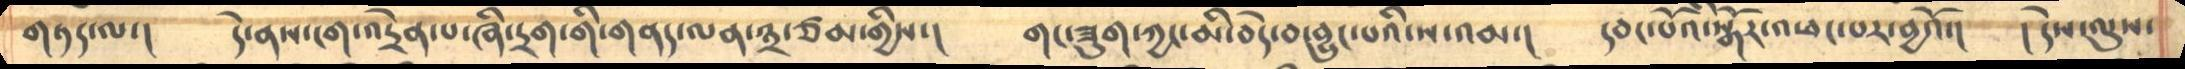གཏད་ལ་།   དེ་ནས་ངག་འདྲེན་པ་ཞི་དྲག་གི་གནད་ལན་༣་ཙམ་གྱིས་།    གང་ཟུག་ཀྱང་མི་བདེ་བ་བྱུང་པའི་ས་འམ་།  དབང་པོའི་སྒོར་འཕང་པར་བྱའོ་།   །དེས་ལུས་
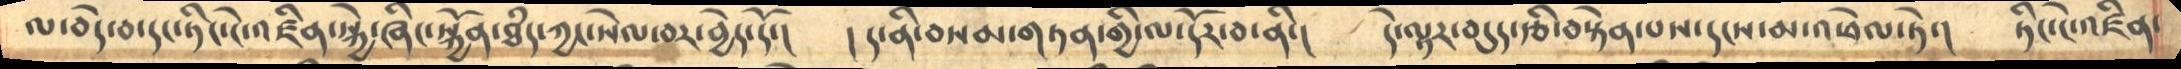ལ་བདེ་བ་དང་ཏིང་ངེ་འཛིན་སྐྱེ་ཞིང་སྐྱོན་ཐྃད་ཀྱང་སེལ་བར་བྱེད་དོ་།   །ད་ནི་བསམ་གཏན་གྱི་ལ་དོར་བ་ནི་།   དེ་ལྟར་བདུད་རྩི་བསྟེན་པས་དངས་མ་འཕེལ་ཏེ་།   ཏིང་ངེ་འཛིན་
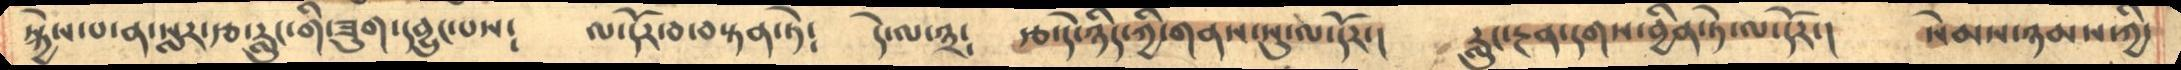སྐྱེས་པ་ན་སླར་རྩ་རླུང་གི་ཟུག་དབྱུང་པས༴   ལ་དོར་བ་བསྟན་ཏེ༴   དེ་ལ་༣༴    རྩ་དེ་ཉིད་ཀྱི་གནས་སུ་ལ་དོར་།   རླུང་རྔན་དགས་བྱིན་ཏེ་ལ་དོར་།  སེམས་ཉམས་ཀྱི་
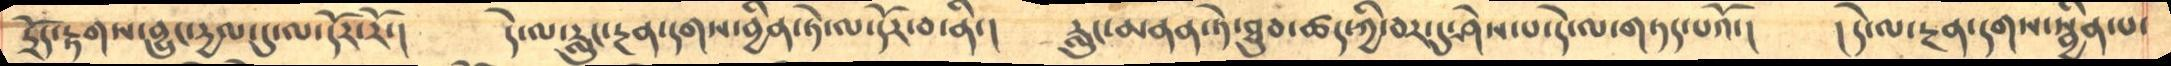དྲོད་རྟགས་བྱུང་དྱལ་དུ་ལ་དོར་རོ་།   དེ་ལ་རླུང་རྔན་དགས་བྱིན་ཏེ་ལ་དོར་བ་ནི་།   རླུང་མནན་ཏེ་ཐུབ་ཚད་ཀྱི་བར་དུ་ཤེས་པ་དེ་ལ་གཏད་པའོ་།   །དེ་ལ་རྔན་དགས་སྦྱིན་པ་
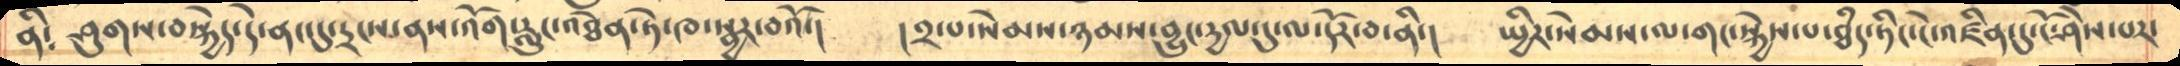ནི༴   ཤུགས་བསྐྱེད་དེ་ནང་དུ་དྲངས་ནས་འོག་རླུང་འཐེན་ཏེ་ཁ་སྦྱར་བའོ་།   །༢་པ་སེམས་ཉམས་བྱུང་དྱལ་དུ་ལ་དོར་བ་ནི་།   སྤྱིར་སེམས་ལ་གང་སྐྱེས་པ་ཐྃད་ཏིང་ངེ་འཛིན་དུ་ངོ་ཤེས་པར་
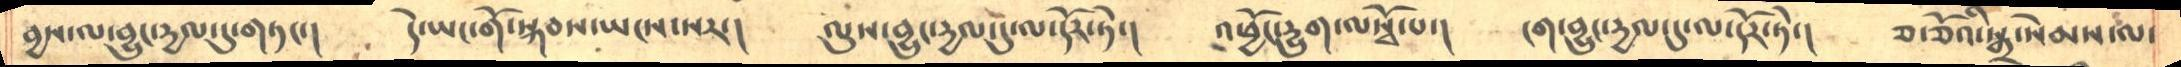བྱས་ལ་བྱུང་དྱལ་དུ་གཏང་།   དེ་ཡང་གོ་སྐབས་ཡངས་པར་།   ལུས་བྱུང་དྱལ་དུ་ལ་དོར་ཏེ་།  འཕྱོང་དྱུག་ལསྭོ་པ་།   ངག་བྱུང་དྱལ་དུ་ལ་དོར་ཏེ་།  ཅ་ཅོའི་སྒྲ་སེམས་ལ་
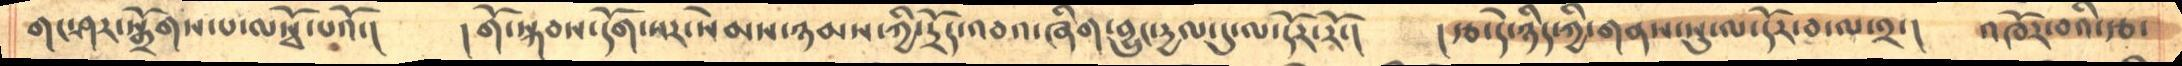གང་ཤར་སྒྲོགས་པ་ལསྭོ་པའོ་།        །གོ་སྐབས་དོག་སར་སེམས་ཉམས་ཀྱི་དྲོད་འབའ་ཞིག་བྱུང་དྱལ་དུ་ལ་དོར་རོ་།    །རྩ་དེ་ཉིད་ཀྱི་གནས་སུ་ལ་དོར་བ་ལ་༢་།   འཁོར་བའི་རྩ་
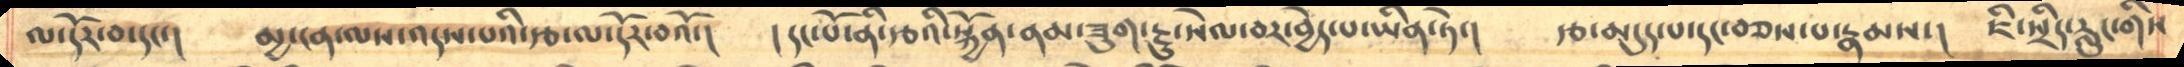ལ་དོར་བ་དང་།   མྱ་ངན་ལས་འདས་པའི་རྩ་ལ་དོར་བའོ་།   །དང་པོ་ནི་རྩའི་སྐྱོན་ནམ་ཟུག་རྔུ་སེལ་བར་བྱེད་པ་ཡིན་ཏེ་།   རྩ་མདུད་པ་དང་བཅས་པ་རྣམས་།   ཇི་སྲིད་རླུང་གིས
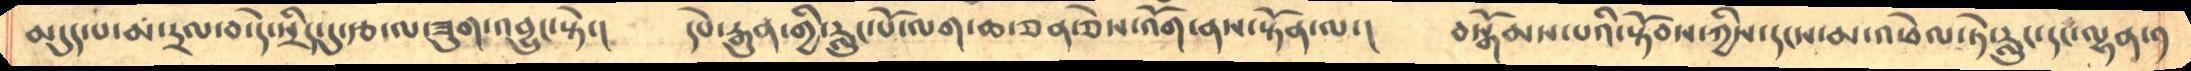མདུད་པ་མ་དྲལ་བ་དེ་སྲིད་དུ་རྩ་ལ་ཟུག་འབྱུང་སྟེ་།    དཔེ་རྒྱུན་གྱི་རླུང་པོ་ལག་ཆ་ཅན་ཅེས་འོག་ནས་སྟོན་ལ་།     བསྒོམས་པའི་སྟོབས་ཀྱིས་དངས་མ་འཕེན་ཏེ་རླུང་དང་ལྷན་༡
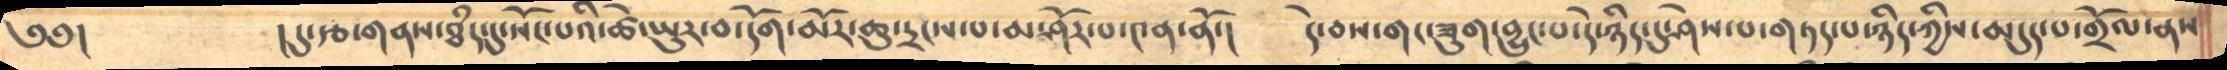༄༅།          །དུ་རྩ་གནས་ཐྃད་དུ་སོང་པའི་ཚེ་ཡུར་བ་དོག་མོར་ཆུ་དྲངས་པ་མ་ཤོར་པ་༤ན་ནོ་།    དེ་བས་གང་ཟུག་བྱུང་པ་དེ་ཉིད་དུ་ཤེས་པ་གཏད་པ་ཉིད་ཀྱིས་མདུད་པ་གྲོལ་ནས
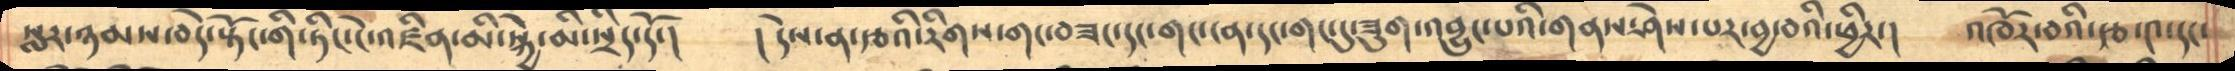སླར་ཉམས་བདེ་སྟོང་གི་ཏེང་ངེ་འཛིན་མི་སྐྱེ་མི་སྲིད་དོ་།    །དེས་ན་རྩའི་རིགས་གང་བཟང་དང་གང་ངན་དང་གང་དུ་ཟུག་འབྱུང་པའི་གནས་ཤེས་པར་བྱ་བའི་ཕྱིར་།     འཁོར་བའི་རྩ་༤་དང་
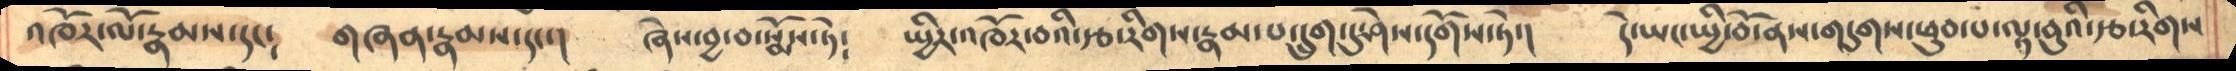འཁོར་ལོ་རྣམས་དང༴   གཞན་རྣམས་དང་།     ཞེས་བྱ་བ་སྨོས་ཏེ༴   སྤྱིར་འཁོར་བའི་རྩ་རིགས་རྣམ་པ་དྲུག་དུ་ཤེས་དགོས་ཏེ་།     དེ་ཡང་སྤྱི་བོ་ནས་གདུགས་ཕུབ་པ་ལྟ་བུའི་རྩ་རིགས
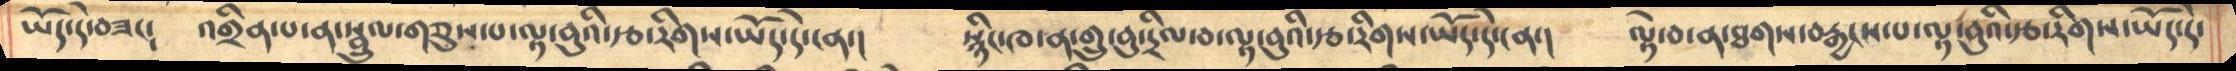ཡོད་དེ་བཟང༴    འགྲིན་པ་ན་སྦྲུལ་གཅུས་པ་ལྟ་བུའི་རྩ་རིགས་ཡོད་དེ་ངན་།    སྙིང་ཁ་ན་གྲུ་བུ་དྲིལ་བ་ལྟ་བུའི་རྩ་རིགས་ཡོད་དེ་ངན་།    ལྟེ་བ་ན་ཐགས་བརྒྱངས་པ་ལྟ་བུའི་རྩ་རིགས་ཡོད་དེ་
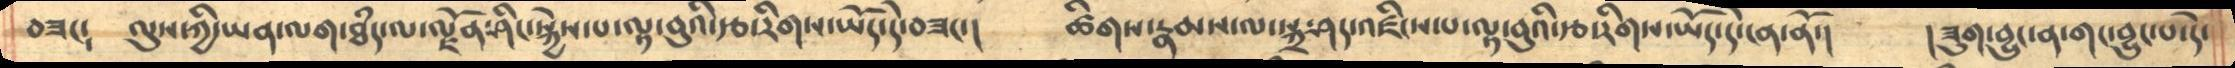བཟང༴   ལུས་ཀྱི་ཡན་ལག་ཐྃད་ལ་ལྗོན་ཤིང་སྐྱེས་པ་ལྟ་བུའི་རྩ་རིགས་ཡོད་དེ་བཟང་།    ཚིགས་རྣམས་ལ་སྐྲ་ཤད་འཛིངས་པ་ལྟ་བུའི་རྩ་རིགས་ཡོད་དེ་ངན་ནོ་།    །ཟུག་བྱུང་ན་གང་བྱུང་པ་དེ་
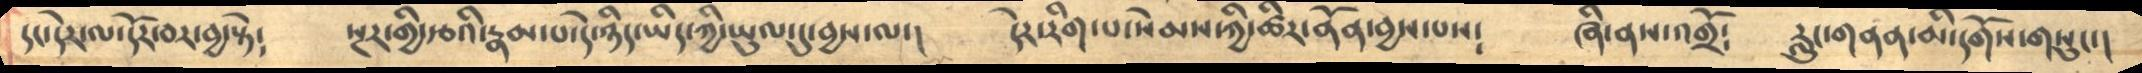དང་དེར་ལ་དོར་བར་སྟེ༴   སྔར་གྱི་རྩའི་རྣམ་པ་དེ་ཉིད་ཡིད་ཀྱི་ཡུལ་དུ་བྱས་ལ་།   དེར་རིག་པ་སེམས་ཀྱི་ཚིར་ནོན་བྱས་པས༴   ཞི་ནས་འགྲོ༴  རླུང་གནན་མི་དགོས་གསུང་།
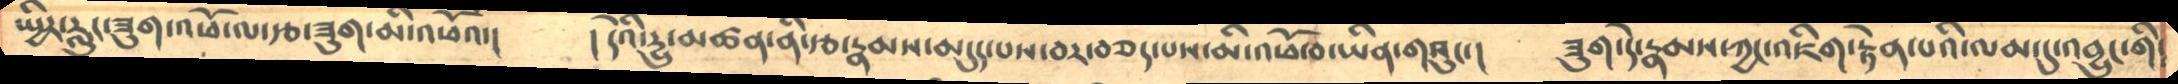སྤྱིར་རླུང་ཟུག་འཕོ་ལ་རྩ་ཟུག་མི་འཕོའ་། །དེའི་དྱུ་མཚན་ནི་རྩ་རྣམས་མདུད་པས་བར་བཅད་པས་མི་འཕོ་བ་ཡིན་གསུང་།    ཟུག་དེ་རྣམས་ཀྱང་འཇིག་རྟེན་པའི་ལམ་དུ་འབྱུང་གི་
